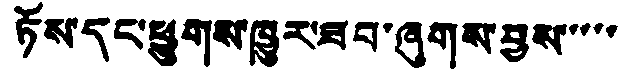ཏོས་དང་ཕྱུགས་ཁྱུར་ཟབ་ཞུགས་བྱས་་་་་
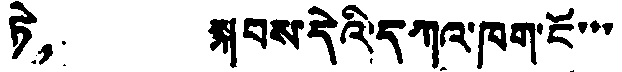ཏེ， སྐབས་དེའི་དཀའ་ཁག་ངོ་་་
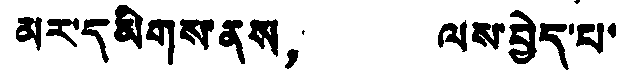མར་དམིགས་ནས， ལས་བྱེད་པ་
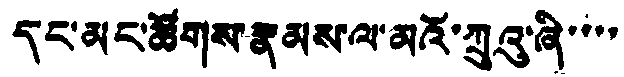དང་མང་ཚོགས་རྣམས་ལ་མའོ་ཀྲུའུ་ཞི་་་་
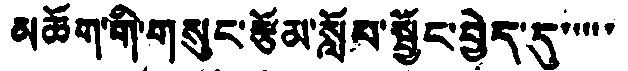མཆོག་གི་གསུང་རྩོམ་སློབ་སྦྱོང་བྱེད་དུ་་་་་
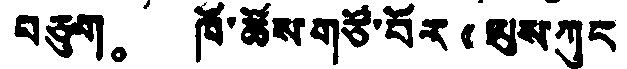བཅུག。 ཁོ་ཚོས་གཙོ་བོར《ལུས་ཀུང
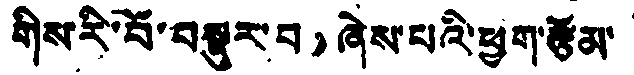གིས་རི་བོ་བསྡུར་བ》ཞེས་པའི་ཕྱག་རྩོམ་་
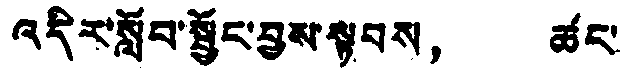འདིར་སློབ་སྦྱོང་བྱས་སྟབས， ཚང་
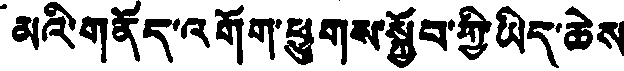མའི་གནོད་འགོག་ཕྱུགས་སྐྱོབ་ཀྱི་ཡིད་ཆེས་
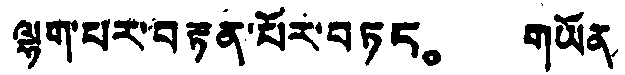ལྷག་པར་བརྟན་པོར་བཏང。 གཡོན་
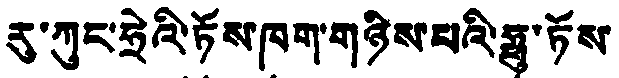རུ་ཀུང་ཧྲེའི་ཏོས་ཁག་གཉིས་པའི་ཧྥུ་ཏོས
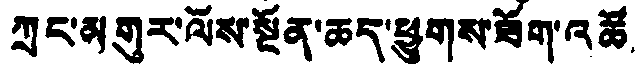ཀྲང་མགུར་ལོས་སྔོན་ཆད་ཕྱུགས་ཟོག་འཚོ་
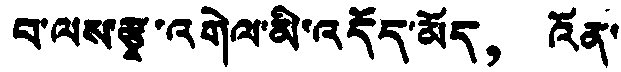བ་ལས་རྩྭ་འགེལ་མི་འདོད་མོད， འོན་
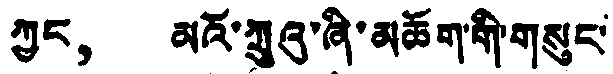ཀྱང， མའོ་ཀྲུའུ་ཞི་མཆོག་གི་གསུང་
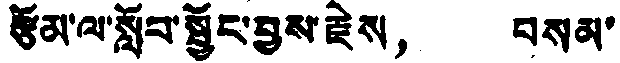རྩོམ་ལ་སློབ་སྦྱོང་བྱས་རྗེས， བསམ་
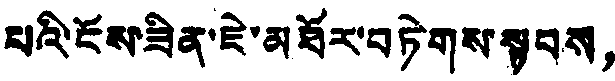པའི་ངོས་ཟིན་ཇེ་མཐོར་བཏེགས་སྟབས，
